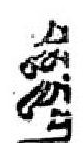བཅུ་དྲུག་
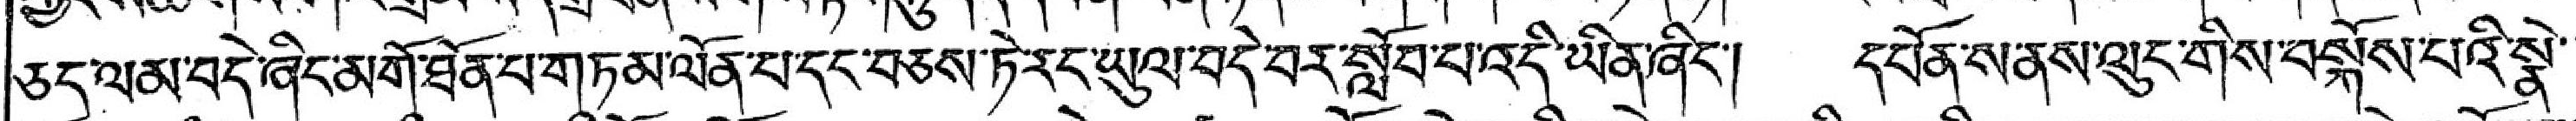ཅད་ལམ་བདེ་ཞིང་མགོ་ཐོན་པ་གཏམ་ལོན་པ་དང་བཅས་ཏེ་རང་ཡུལ་བདེ་བར་སློབ་པ་འདི་ཡིན་ཞིང་། དཔོན་ས་ནས་ལུང་གིས་བསྐོས་པའི་སྣེ་་
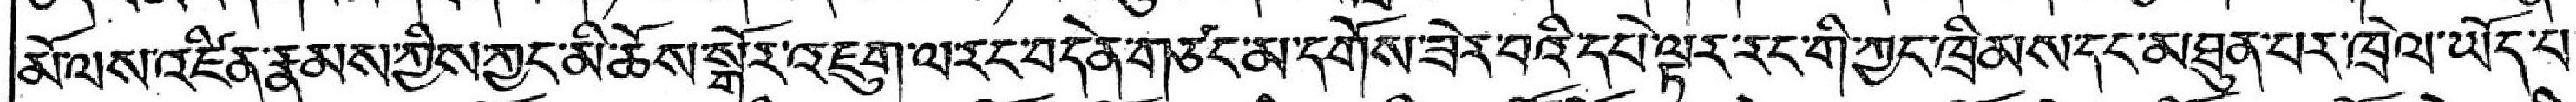མོ་ལས་འཛིན་རྣམས་ཀྱིས་ཀྱང་མི་ཆོས་སྒོར་འཇུག་ལ་རང་བདེན་གཙང་མ་དགོས་ཟེར་བའི་དཔེ་ལྟར་རང་གི་ཀྱང་ཁྲིམས་དང་མཐུན་པར་ཁྲེལ་ཡོད་པ་
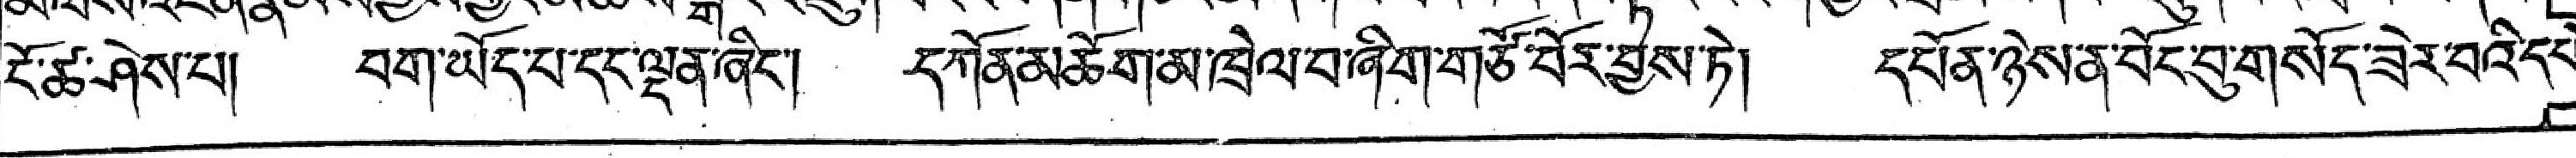ངོ་ཚ་ཤེས་པ། བག་ཡོད་པ་དང་ལྡན་ཞིང་། དཀོན་མཆོག་མ་ཁྲེལ་བ་ཞིག་གཙོ་བོར་བྱས་ཏེ། དཔོན་ཉེས་ན་བོང་བུ་གསོད་ཟེར་བའི་དཔེ་
